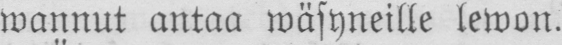wannut antaa wäsyneille lewon.
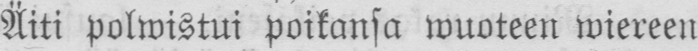Äiti polwistui poikansa wuoteen wiereen
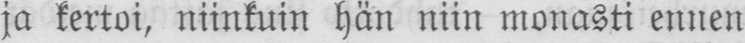ja kertoi, niinkuin hän niin monasti ennen
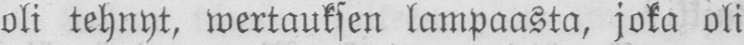oli tehnyt, wertauksen lampaasta, joka oli
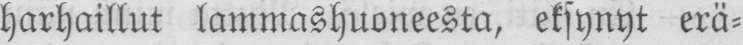harhaillut lammashuoneesta, eksynyt erä-
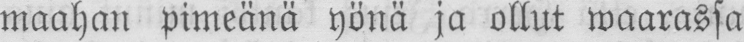maahan pimeänä yönä ja ollut waarassa
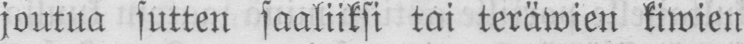joutua sutten saaliiksi tai teräwien kiwien
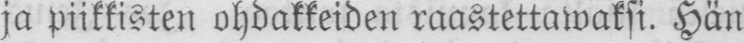ja piikkisten ohdakkeiden raastettawaksi. Hän
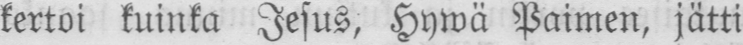kertoi kuinka Jesus, Hywä Paimen, jätti
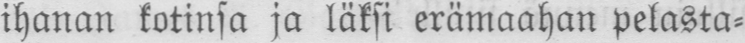ihanan kotinsa ja läksi erämaahan pelasta-
